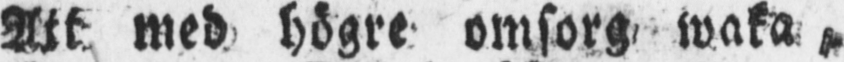Att med högre omsorg waka,
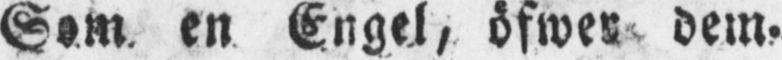Som en Engel, öfwer dem.
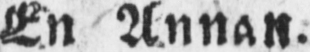En Annan.
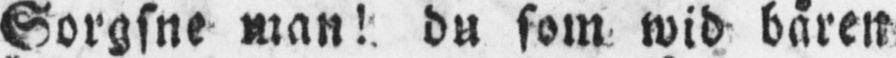Sorgsne man! du som wid båren
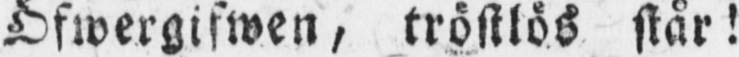Öfwergifwen, tröstlös står!
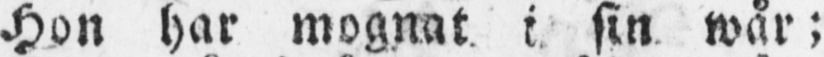Hon har mognat i sin wår;
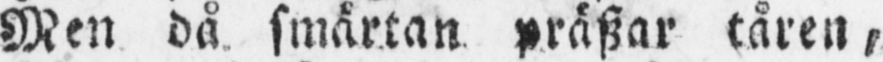Men då smärtan präszar tåren,
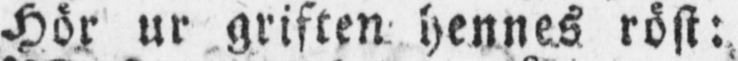Hör ur griften hennes röst:
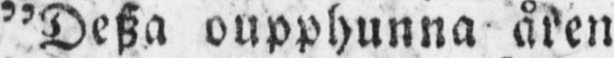"Desza oupphunna åren
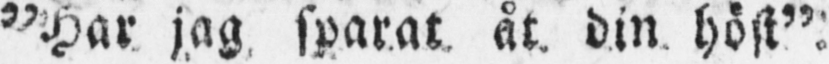"Har jag sparat åt din höst"
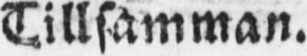Tillsamman.
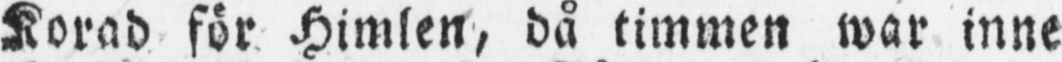Korad för Himlen, då timmen war inne
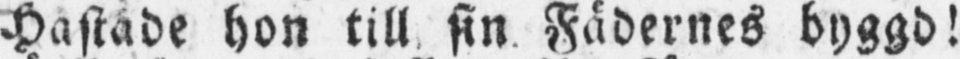Hastade hon till sin Fädernes byggd!
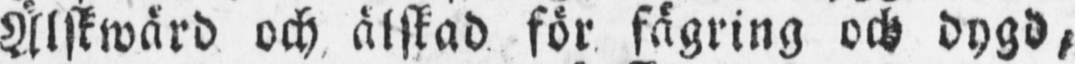Älskwärd och älskad för fägring och dygd,
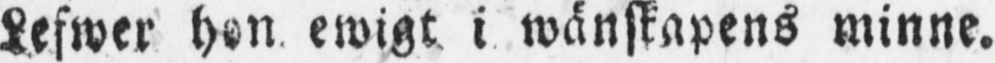Lefwer hon ewigt i wänskapens minne.
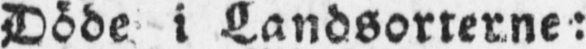Döde i Landsorterne:
